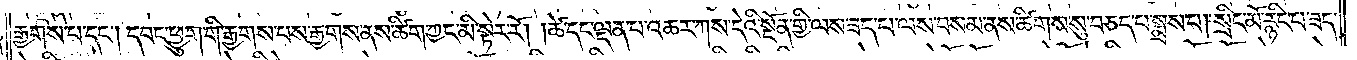རྒྱགས་པ་དང༌། དབང་ཕྱུག་གི་རྒྱགས་པས་རྒྱགས་ནས་ཚིག་ཀྱང་མི་སྟེར་རོ། །ཚེ་དང་ལྡན་པ་འཆར་ཀས་དེའི་སྔོན་གྱི་ལས་ཟད་པ་ལས་བསམ་ནས་ཚིགས་སུ་བཅད་པ་སྨྲས་པ། སྲིང་མོ་རྙིང་པ་ཟད་
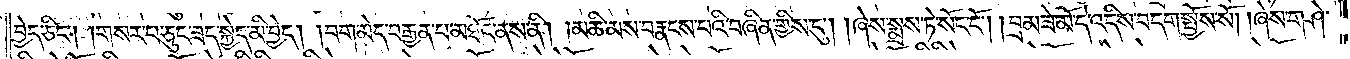བྱེད་ཅིང༌། །གསར་པ་ཅུང་ཟད་སྐྱེད་མི་བྱེད། །བག་མེད་བརྒྱན་པ་མཐོང་ནས་ནི། །མཆི་མས་བརྣངས་པའི་བཞིན་གྱིས་དུ། །ཞེས་སྨྲས་ཏེ་སོང་ངོ༌། །བྲམ་ཟེ་མོ་དེ་འདིས་བདག་སྤྱོས་སོ། །ཞེས་གཤེ་
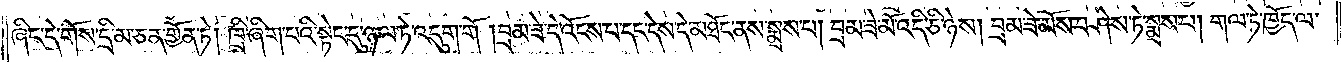ཞིང་དེ་གོས་དྲི་མ་ཅན་གྱོན་ཏེ། ཁྲི་ཞིག་པའི་སྟེང་དུ་ཉལ་ཏེ་འདུག་གོ །བྲམ་ཟེ་དེ་འོངས་པ་དང་དེས་དེ་མཐོང་ནས་སྨྲས་པ། བྲམ་ཟེ་མོ་འདི་ཅི་ཉེས། བྲམ་ཟེ་མོས་བཤེས་ཏེ་སྨྲས་པ། གལ་ཏེ་ཁྱོད་ལ་
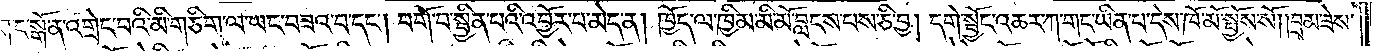གང་སྒོ་ན་འགྲེང་བའི་མི་གཅིག་ལ་ཡང་བཟའ་བ་དང༌། བགོ་བ་སྦྱིན་པའི་འབྱོར་བ་མེད་ན། ཁྱོད་ལ་ཁྱིམ་མི་མོ་བླངས་པས་ཅི་བྱ། དགེ་སྦྱོང་འཆར་ཀ་གང་ཡིན་པ་དེས་ཁོ་མོ་སྤྱོས་སོ༎བྲམ་ཟེས་
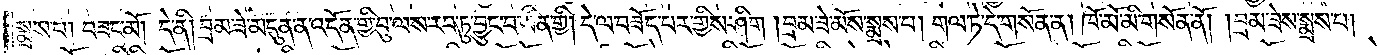སྨྲས་པ། བཟང་མོ། དེ་ནི། བྲམ་ཟེ་མདུན་ན་འདོན་གྱི་བུ་ལས་རབ་ཏུ་བྱུང་བ་ཡིན་གྱི། དེ་ལ་བཟོད་པར་གྱིས་ཤིག །བྲམ་ཟེ་མོས་སྨྲས་པ། གལ་ཏེ་དེ་གསོན་ན། ཁོ་མོ་མི་གསོན་ནོ། །བྲམ་ཟེས་སྨྲས་པ།
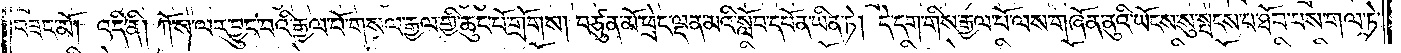བཟང་མོ། འདི་ནི། ཀོ་ས་ལར་བྱུང་བའི་རྒྱལ་པོ་གསལ་རྒྱལ་གྱི་ཆུང་པོ་གྲོགས། བཙུན་མོ་ཕྲེང་ལྡན་མའི་སློབ་དཔོན་ཡིན་ཏེ། དེ་དག་གིས་རྒྱལ་པོ་ལས་གཞོན་ནུའི་ཡོངས་སུ་སྤངས་པ་ཐོབ་པས་གལ་ཏེ་
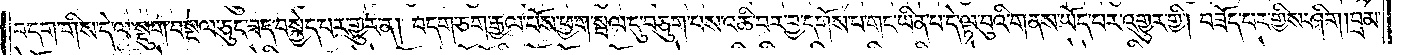བདག་གིས་དེ་ལ་སྡུག་བསྔལ་ཅུང་ཟད་བསྐྱེད་པར་གྱུར་ན། བདག་ཅག་རྒྱལ་པོས་ཕྱག་སྦལ་དུ་བཅུག་པས་འཆི་བར་བྱ་དགོས་པ་གང་ཡིན་པ་དེ་ལྟ་བུའི་གནས་ཡོད་པར་འགྱུར་གྱི། བཟོད་པར་གྱིས་ཤིག།བྲམ་
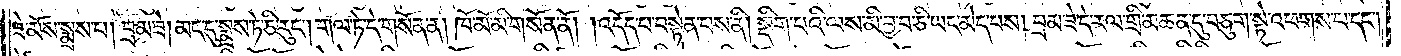ཟེ་མོས་སྨྲས་པ། བྲམ་ཟེ། མང་དུ་སྨྲས་ཏེ་ཅི་རུང༌། གལ་ཏེ་དེ་གསོན་ན། ཁོ་མོ་མི་གསོན་ནོ། །འདོད་པ་བསྟེན་པས་ནི། སྡིག་པའི་ལས་མི་བྱ་བ་ཅི་ཡང་མེད་པས། བྲམ་ཟེ་དེ་རལ་གྲི་མཆན་དུ་བཅུག་སྟེ་འཕགས་པ་དང༌།
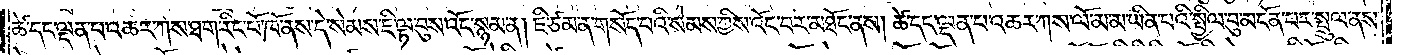ཚེ་དང་ལྡན་པ་འཆར་ཀས་ཐག་རིང་པོ་ཁོ་ནས་དེ་སེམས་ཇི་ལྟ་བུས་འོང་སྙམ་ན། ཇི་ཙམ་ན་གསོད་པའི་སེམས་ཀྱིས་འོང་བར་མཐོང་ནས། ཚེ་དང་ལྡན་པ་འཆར་ཀས་ལོ་མ་མ་ཡིན་པའི་སྤྱིལ་བུ་མངོན་པར་སྤྲུལ་ནས་
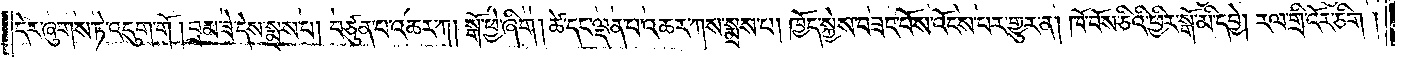དེར་ཞུགས་ཏེ་འདུག་གོ །བྲམ་ཟེ་དེས་སྨྲས་པ། བཙུན་པ་འཆར་ཀ། སྒོ་ཕྱེ་ཞིག །ཚེ་དང་ལྡན་པ་འཆར་ཀས་སྨྲས་པ། ཁྱོད་སྐྱེས་བཟང་པོས་འོངས་པར་གྱུར་ན། ཁོ་བོས་ཅིའི་ཕྱིར་སྒོ་མི་དབྱེ། རལ་གྲི་འོར་ཅིག །
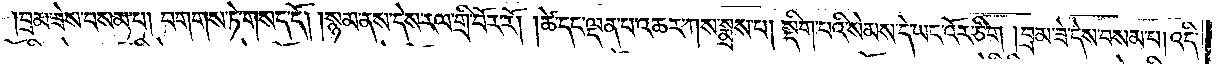བྲམ་ཟེས་བསམ་པ། བགགས་ཏེ་གསད་དོ། །སྙམ་ནས་དེས་རལ་གྲི་བོར་རོ། །ཚེ་དང་ལྡན་པ་འཆར་ཀས་སྨྲས་པ། སྡིག་པའི་སེམས་དེ་ཡང་འོར་ཅིག །བྲམ་ཟེ་དེས་བསམ་པ། འདི་
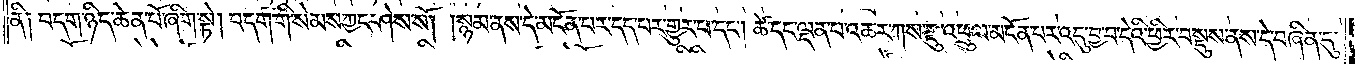ནི། བདག་ཉིད་ཆེན་པོ་ཞིག་སྟེ། བདག་གི་སེམས་ཀྱང་ཤེས་སོ། །སྙམ་ནས་དེ་མངོན་པར་དད་པར་གྱུར་པ་དང༌། ཚེ་དང་ལྡན་པ་འཆར་ཀས་རྫུ་འཕྲུལ་མངོན་པར་འདུ་བྱ་བ་དེའི་ཕྱིར་བསྡུས་ནས་དེ་བཞིན་དུ་
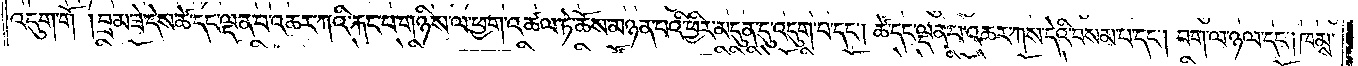འདུག་གོ །བྲམ་ཟེ་དེས་ཚེ་དང་ལྡན་པ་འཆར་ཀའི་རྐང་པ་གཉིས་ལ་ཕྱག་འཚལ་ཏེ་ཆོས་མཉན་པའི་ཕྱིར་མདུན་དུ་འདུག་པ་དང༌། ཚེ་དང་ལྡན་པ་འཆར་ཀས་དེའི་བསམ་པ་དང༌། བག་ལ་ཉལ་དང༌། ཁམས་
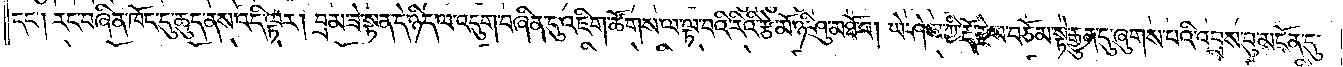དང༌། རང་བཞིན་ཁོང་དུ་ཆུད་ནས་འདི་ལྟར། བྲམ་ཟེ་སྟན་དེ་ཉིད་ལ་འདུག་བཞིན་དུ་འཇིག་ཚོགས་ལ་ལྟ་བའི་རིའི་རྩེ་མོ་ཉི་ཤུ་མཐོ་བ། ཡེ་ཤེས་ཀྱི་རྡོ་རྗེས་བཅོམ་སྟེ་རྒྱུན་དུ་ཞུགས་པའི་འབྲས་བུ་མངོན་དུ་
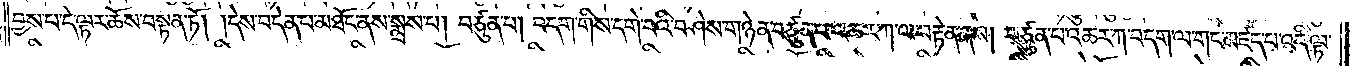བྱས་པ་དེ་ལྟར་ཆོས་བསྟན་ཏོ། །དེས་བདེན་པ་མཐོང་ནས་སྨྲས་པ། བཙུན་པ། བདག་གིས་དགེ་བའི་བཤེས་གཉེན་བཙུན་པ་འཆར་ཀ་ལ་བརྟེན་ནས། བཙུན་པ་འཆར་ཀ་བདག་ལ་གང་མཛད་པ་འདི་ལྟ་
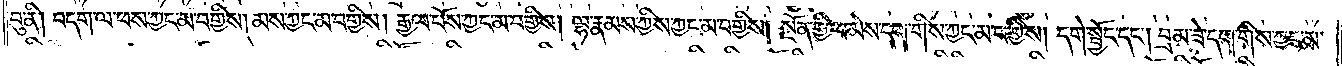བུ་ནི། བདག་ལ་ཕས་ཀྱང་མ་བགྱིས། མས་ཀྱང་མ་བགྱིས། རྒྱལ་པོས་ཀྱང་མ་བགྱིས། ལྷ་རྣམས་ཀྱིས་ཀྱང་མ་བགྱིས། སྔོན་གྱི་ཕ་མེས་དག་གིས་ཀྱང་མ་བགྱིས། དགེ་སྦྱོང་དང༌། བྲམ་ཟེ་དག་གིས་ཀྱང་མ་
